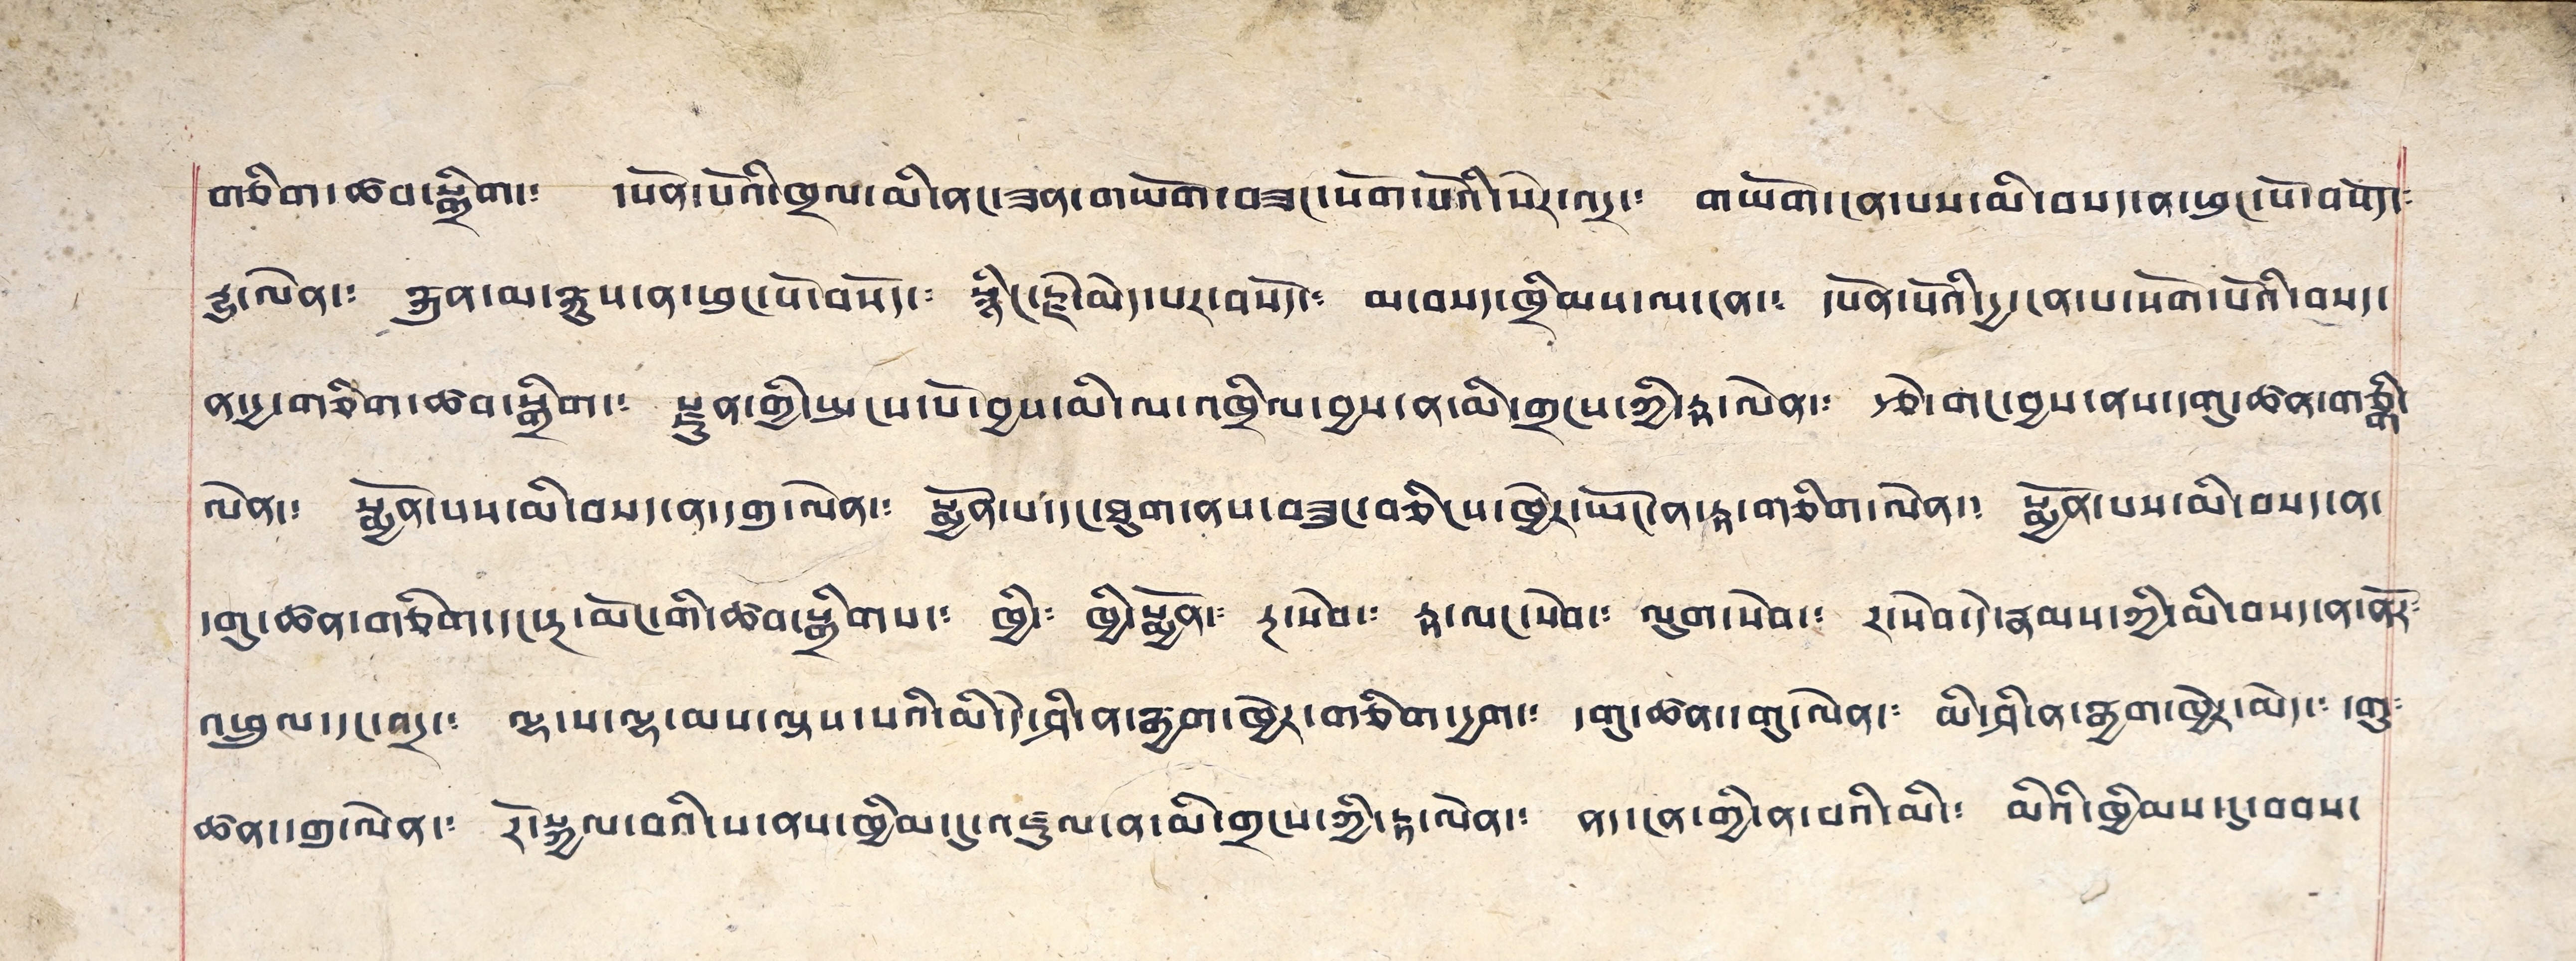བཅིག་ཚབ་སྒྲིག་༴ དཔོན་པོའི་ཁྲལ་མི་ནང་ཟན་གཡོག་བཟང་སོག་པོའི་སེར་འདྲ་༴ གཡོག་ངན་པས་མི་བསད་ཕུང་པོ་བསོད༴
རྒྱུ་ལེན་༴ རྐུན་མ་རྐུས་ན་ཕུང་པོ་བསོད་༴ སྙིང་རྗེ་མེད་པར་བསོད་༴ མ་བསད་ཁྲིམས་ལ་ངན་༴ དཔོན་པོའི་དྱ་ངན་པ་སོག་པོའི་བསད་
ན་དྱ་གཅིག་ཆབ་སྒྲིག་༴ རྫུན་གྱི་སྤངས་པོ་བྱས་མི་ལ་འཁྲིལ་བྱས་ན་མི་གྲངས་ཀྱི་རྟ་ལེན་༴ རྩེ་གང་བྱས་ནས་དགུ་ཚན་གཅིྒ་
ལེན་༴ སྨྱོན་པས་མི་བསད་ན་དགུ་ལེན་༴ སྨྱོན་པ་དང་ཐུག་ནས་བཟུང་བཅིངས་ཁྱེར་ཡོང་ན་རྟ་གཅིག་ལེན་༴ སྨྱོན་པས་མི་བསད་ན་
དགུ་ཚན་གཅིག་དང་རྔ་མོང་གི་ཚབ་སྒྲིགས་༴ ཁྱི་༴ ཁྱི་སྨྱོན་༴ རྔ་སེབ་༴ རྟ་ལང་སེབ་༴ ལུག་སེབ་༴ ར་སེབ་དེ་རྣམས་ཀྱི་མི་བསད་ན་ནོར༴
འཕྲུལ་དང་བདྲ་༴ ལྷ་པ་ལྷ་མས་ལྟས་པའི་མི་དེ་ཤི་ན་རྒྱག་ཁྱེར་གཅིག་དྱག་༴ དགུ་ཚན་དགུ་ལེན་༴ མི་ཤི་ན་རྒྱག་ཁྱེར་མེད་༴ དགུ༴
ཚན་དགུ་ལེན་༴ རོ་སྐྱལ་བའི་ས་ནས་ཁྱིམ་དུ་འཛུལ་ན་མི་གྲངས་ཀྱི་རྟ་ལེན་༴ ནད་ངན་གྱི་ན་བའི་མི་༴ མིའི་ཁྱིམས་དུ་བབས་
